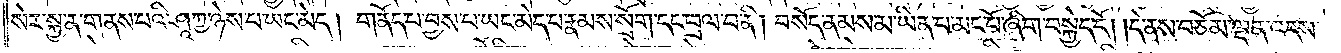སེར་སྐྱ་ན་གནས་པའི་ཤཱཀྱ་ཉེས་པ་ཡང་མེད། གནོད་པ་བྱས་པ་ཡང་མེད་པ་རྣམས་སྲོག་དང་བྲལ་བ་ནི། བསོད་ནམས་མ་ཡིན་པ་མང་པོ་ཞིག་བསྐྱེད་དོ། །དེ་ནས་བཅོམ་ལྡན་འདས་
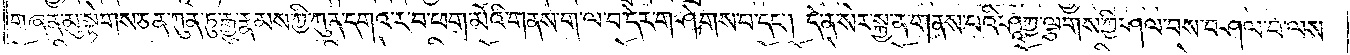གཞན་མུ་སྟེགས་ཅན་ཀུན་ཏུ་རྒྱུ་རྣམས་ཀྱི་ཀུན་དགའ་ར་བ་ཕག་མོའི་གནས་ག་ལ་བ་དེར་གཤེགས་པ་དང༌། དེ་ན་སེར་སྐྱ་ན་གནས་པའི་ཤཱཀྱ་ལྕགས་ཀྱི་ཤལ་བས་བཤལ་བ་ལས་
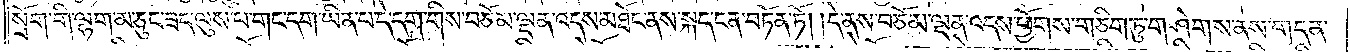སྲོག་གི་ལྷག་མ་ཅུང་ཟད་ལུས་པ་གང་དག་ཡིན་པ་དེ་དག་གིས་བཅོམ་ལྡན་འདས་མཐོང་ནས་སྐད་ངན་བཏོན་ཏོ། །དེ་ནས་བཅོམ་ལྡན་འདས་ཕྱོགས་གཅིག་ཏུ་གཤེགས་ནས་གདན་
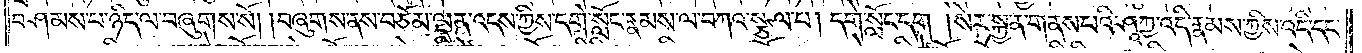བཤམས་པ་ཉིད་ལ་བཞུགས་སོ། །བཞུགས་ནས་བཅོམ་ལྡན་འདས་ཀྱིས་དགེ་སློང་རྣམས་ལ་བཀའ་སྩལ་པ། དགེ་སློང་དག། སེར་སྐྱ་ན་གནས་པའི་ཤཱཀྱ་འདི་རྣམས་ཀྱིས་འདི་དང་
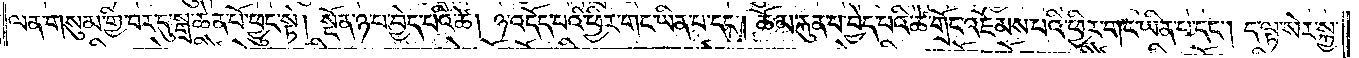ལན་གསུམ་གྱི་བར་དུ་སྒྲ་ཆེན་པོ་ཕྱུང་སྟེ། སྔོན་ཉ་པ་བྱེད་པའི་ཚེ། ཉ་འདོད་པའི་ཕྱིར་གང་ཡིན་པ་དང༌། ཆོམ་རྐུན་པ་བྱེད་པའི་ཚེ་གྲོང་འཇོམས་པའི་ཕྱིར་གང་ཡིན་པ་དང༌། ད་ལྟ་སེར་སྐྱ་
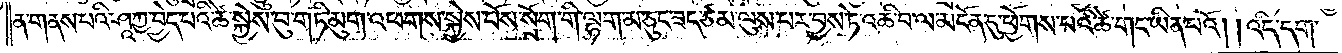ན་གནས་པའི་ཤཱཀྱ་བྱེད་པའི་ཚེ་སྐྱེས་བུ་གཏི་མུག་འཕགས་སྐྱེས་པོས་སྲོག་གི་ལྷག་མ་ཅུང་ཟད་ཙམ་ལུས་པར་བྱས་ཏེ་འཆི་བ་ལ་མངོན་དུ་ཕྱོགས་པའི་ཚེ་གང་ཡིན་པའོ། །འདི་དག་
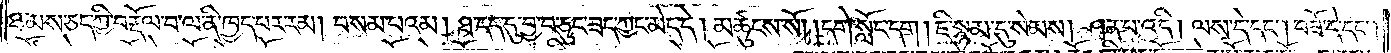ཐམས་ཅད་ཀྱི་བརྡོལ་བ་ལ་ནི་ཁྱད་པར་རམ། བསམ་པའམ། ཐ་དད་དུ་བྱ་བ་ཅུང་ཟད་ཀྱང་མེད་དེ། མཚུངས་སོ། །དགེ་སློང་དག །ཇི་སྙམ་དུ་སེམས། ཤན་པ་འདི། ལས་དེ་དང༌། བཟོ་དེ་དང༌།
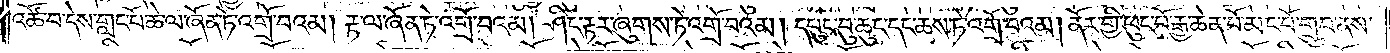འཚོ་བ་དེས་གླང་པོ་ཆེ་ལ་ཞོན་ཏེ་འགྲོ་བའམ། རྟ་ལ་ཞོན་ཏེ་འགྲོ་བའམ། ཤིང་རྟར་ཞུགས་ཏེ་འགྲོ་བའམ། དཔུང་བུ་ཆུང་དང་ཆས་ཏེ་འགྲོ་བའམ། ནོར་གྱི་ཕུང་པོ་རྒྱ་ཆེན་པོ་མང་པོ་གྲུབ་ནས་
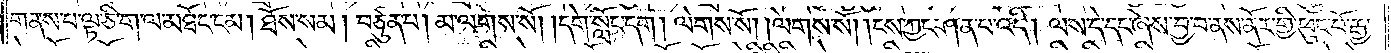གནས་པ་ལྟ་ཅི་ག་ལ་མཐོང་ངམ། ཐོས་སམ། བཙུན་པ། མ་ལགས་སོ། །དགེ་སློང་དག། ལེགས་སོ། །ལེགས་སོ། །ངས་ཀྱང་ཤན་པ་འདི། ལས་དེ་དང་ཞེས་བྱ་བ་ནས་ནོར་གྱི་ཕུང་པོ་རྒྱ་
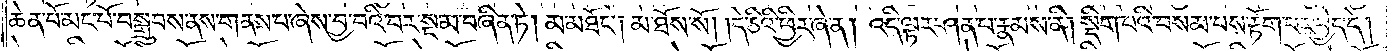ཆེན་པོ་མང་པོ་བསྒྲུབས་ནས་གནས་པ་ཞེས་བྱ་བའི་བར་སྔ་མ་བཞིན་ཏེ། མ་མཐོང༌། མ་ཐོས་སོ། །དེ་ཅིའི་ཕྱིར་ཞེ་ན། འདི་ལྟར་ཤན་པ་རྣམས་ནི། སྡིག་པའི་བསམ་པས་རྟོག་པར་བྱེད་དེ།
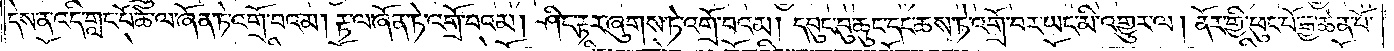དེས་ན་འདི་གླང་པོ་ཆེ་ལ་ཞོན་ཏེ་འགྲོ་བའམ། རྟ་ལ་ཞོན་ཏེ་འགྲོ་བའམ། ཤིང་རྟར་ཞུགས་ཏེ་འགྲོ་བའམ། དཔུང་བུ་ཆུང་དང་ཆས་ཏེ་འགྲོ་བར་ཡང་མི་འགྱུར་ལ། ནོར་གྱི་ཕུང་པོ་རྒྱ་ཆེན་པོ་
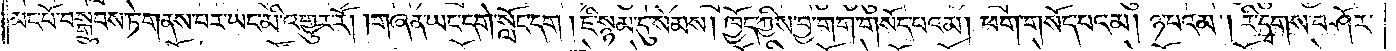མང་པོ་བསྒྲུབས་ཏེ་གནས་པར་ཡང་མི་འགྱུར་རོ། །གཞན་ཡང་དགེ་སློང་དག །ཇི་སྙམ་དུ་སེམས། ཁྱོད་ཀྱིས་བྱ་གག་གསོད་པའམ། ཕག་གསོད་པའམ། ཉ་པའམ། རི་དྭགས་བཤོར་
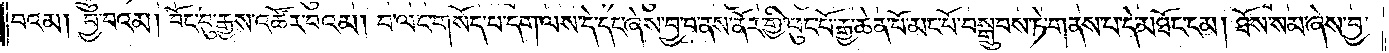བའམ། བྱ་བའམ། བོང་བུ་རྒྱས་འཚོར་བའམ། བ་ལང་གསོད་པ་དག་ལས་དེ་དང་ཞེས་བྱ་བ་ནས་ནོར་གྱི་ཕུང་པོ་རྒྱ་ཆེན་པོ་མང་པོ་བསྒྲུབས་ཏེ་གནས་པ་དེ་མཐོང་ངམ། ཐོས་སམ་ཞེས་བྱ་
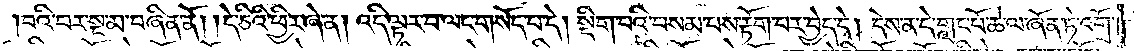བའི་བར་སྔ་མ་བཞིན་ནོ། །དེ་ཅིའི་ཕྱིར་ཞེ་ན། འདི་ལྟར་བ་ལང་གསོད་པ་དེ། སྡིག་པའི་བསམ་པས་རྟོག་པར་བྱེད་དེ། དེས་ན་དེ་གླང་པོ་ཆེ་ལ་ཞོན་ཏེ་འགྲོ་
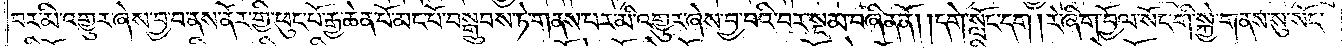བར་མི་འགྱུར་ཞེས་བྱ་བ་ནས་ནོར་གྱི་ཕུང་པོ་རྒྱ་ཆེན་པོ་མང་པོ་བསྒྲུབས་ཏེ་གནས་པར་མི་འགྱུར་ཞེས་བྱ་བའི་བར་སྔ་མ་བཞིན་ནོ། །དགེ་སློང་དག །རེ་ཞིག་བྱོལ་སོང་གི་སྐྱེ་གནས་སུ་སོང་
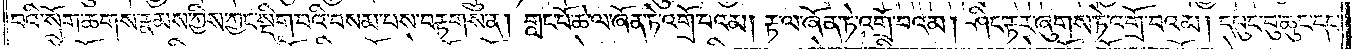བའི་སྲོག་ཆགས་རྣམས་ཀྱིས་ཀྱང་སྡིག་པའི་བསམ་པས་བརྟགས་ན། གླང་པོ་ཆེ་ལ་ཞོན་ཏེ་འགྲོ་བའམ། རྟ་ལ་ཞོན་ཏེ་འགྲོ་བའམ། ཤིང་རྟར་ཞུགས་ཏེ་འགྲོ་བའམ། དཔུང་བུ་ཆུང་དང་
